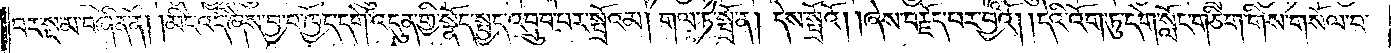བར་སྔ་མ་བཞིན་ནོ། །མིང་འདི་ཞེས་བྱ་བ་ཁྱོད་དགེ་འདུན་གྱི་སྣོད་སྤྱད་འབྲུབ་པར་སྤྲོའམ། གལ་ཏེ་སྤྲོ་ན། དེས་སྤྲོའོ། །ཞེས་བརྗོད་པར་བྱའོ། །དེའི་འོག་ཏུ་དགེ་སློང་གཅིག་གིས་གསོལ་བ་
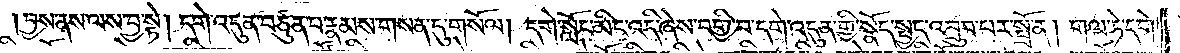བྱས་ནས་ལས་བྱ་སྟེ། དགེ་འདུན་བཙུན་པ་རྣམས་གསན་དུ་གསོལ། དགེ་སློང་མིང་འདི་ཞེས་བགྱི་བ་དགེ་འདུན་གྱི་སྣོད་སྤྱད་འབྲུབ་པར་སྤྲོ་ན། གལ་ཏེ་དགེ་
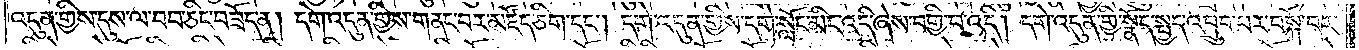འདུན་གྱིས་དུས་ལ་བབ་ཅིང་བཟོད་ན། དགེ་འདུན་གྱིས་གནང་བར་མཛོད་ཅིག་དང༌། དགེ་འདུན་གྱིས་དགེ་སློང་མིང་འདི་ཞེས་བགྱི་བ་འདི། དགེ་འདུན་གྱི་སྣོད་སྤྱད་འབྲུབ་པར་བསྐོ་བར་
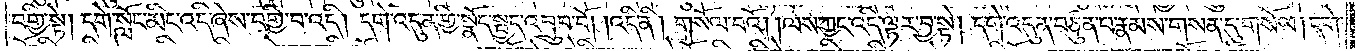བགྱི་སྟེ། དགེ་སློང་མིང་འདི་ཞེས་བགྱི་བ་འདི། དགེ་འདུན་གྱི་སྣོད་སྤྱད་འབྲུབ་བོ། །འདི་ནི། གསོལ་བའོ། །ལས་ཀྱང་འདི་ལྟར་བྱ་སྟེ། དགེ་འདུན་བཙུན་པ་རྣམས་གསན་དུ་གསོལ། དགེ་
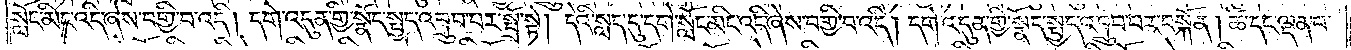སློང་མིང་འདི་ཞེས་བགྱི་བ་འདི། དགེ་འདུན་གྱི་སྣོད་སྤྱད་འབྲུབ་པར་སྤྲོ་སྟེ། དེའི་སླད་དུ་དགེ་སློང་མིང་འདི་ཞེས་བགྱི་བ་འདི། དགེ་འདུན་གྱི་སྣོད་སྤྱད་འབྲུབ་པར་བསྐོ་ན། ཚེ་དང་ལྡན་པ་
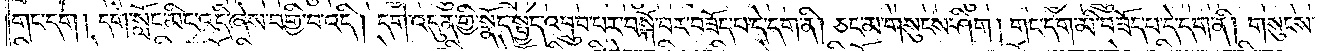གང་དག །དགེ་སློང་མིང་འདི་ཞེས་བགྱི་བ་འདི། དགེ་འདུན་གྱི་སྣོད་སྤྱད་འབྲུབ་པར་བསྐོ་བར་བཟོད་པ་དེ་དག་ནི། ཅང་མ་གསུངས་ཤིག །གང་དག་མི་བཟོད་པ་དེ་དག་ནི། གསུངས་
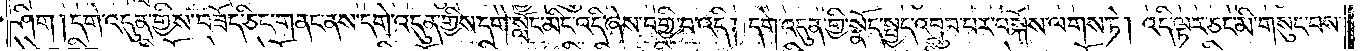ཤིག །དགེ་འདུན་གྱིས་བཟོད་ཅིང་གནང་ནས་དགེ་འདུན་གྱིས་དགེ་སློང་མིང་འདི་ཞེས་བགྱི་བ་འདི། དགེ་འདུན་གྱི་སྣོད་སྤྱད་འབྲུབ་པར་བསྐོས་ལགས་ཏེ། འདི་ལྟར་ཅང་མི་གསུང་བས་
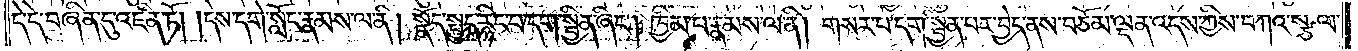དེ་དེ་བཞིན་དུ་འཛིན་ཏོ། །དེས་དགེ་སློང་རྣམས་ལ་ནི། སྣོད་སྤྱད་རྙིང་བ་དག་སྦྱིན་ཞིང༌། ཁྱིམ་པ་རྣམས་ལ་ནི། གསར་པ་དག་སྦྱིན་པར་བྱེད་ནས་བཅོམ་ལྡན་འདས་ཀྱིས་བཀའ་སྩལ་
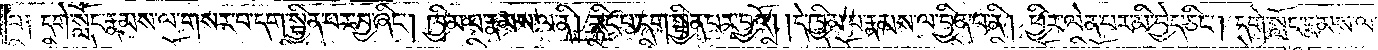བ། དགེ་སློང་རྣམས་ལ་གསར་པ་དག་སྦྱིན་པར་བྱ་ཞིང༌། ཁྱིམ་པ་རྣམས་ལ་ནི། རྙིང་པ་དག་སྦྱིན་པར་བྱའོ། །དེ་ཁྱིམ་པ་རྣམས་ལ་བྱིན་པ་ནི། ཕྱིར་ལེན་པར་མི་བྱེད་ཅིང༌། དགེ་སློང་རྣམས་ལ་
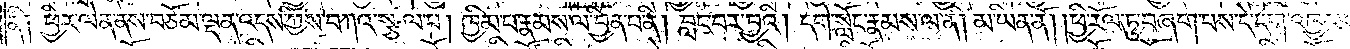ནི། ཕྱིར་ལེན་ནས་བཅོམ་ལྡན་འདས་ཀྱིས་བཀའ་སྩལ་པ། ཁྱིམ་པ་རྣམས་ལ་བྱིན་པ་ནི། བླང་བར་བྱའི། དགེ་སློང་རྣམས་ལ་ནི། མ་ཡིན་ནོ། །ཕྱི་རོལ་ཏུ་བཞག་པས་དེ་དག་འཁྱམས་
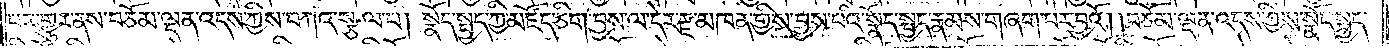པར་གྱུར་ནས་བཅོམ་ལྡན་འདས་ཀྱིས་བཀའ་སྩལ་པ། སྣོད་སྤྱད་ཀྱི་མཛོད་ཅིག་བྱས་ལ་དེར་རྫ་མཁན་གྱིས་བྱས་པའི་སྣོད་སྤྱད་རྣམས་གཞག་པར་བྱའོ། །བཅོམ་ལྡན་འདས་ཀྱིས་སྣོད་སྤྱད་
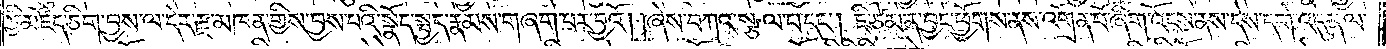ཀྱི་མཛོད་ཅིག་བྱས་ལ་དེར་རྫ་མཁན་གྱིས་བྱས་པའི་སྣོད་སྤྱད་རྣམས་གཞག་པར་བྱའོ། །ཞེས་བཀའ་སྩལ་པ་དང༌། ཇི་ཙམ་ན་བྱང་ཕྱོགས་ནས་འགྲོན་པོ་ཞིག་འོངས་ནས་དེས་དགེ་འདུན་ལ་
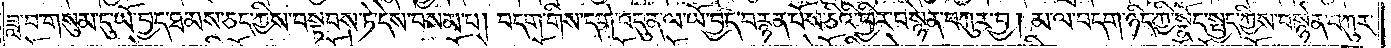ཟླ་བ་གསུམ་དུ་ཡོ་བྱད་ཐམས་ཅད་ཀྱིས་བསྟབས་ཏེ་དེས་བསམ་པ། བདག་གིས་དགེ་འདུན་ལ་ཡོ་བྱད་བརྙན་པོས་ཅིའི་ཕྱིར་བསྙེན་བཀུར་བྱ། མ་ལ་བདག་ཉིད་ཀྱི་སྣོད་སྤྱད་ཀྱིས་བསྙེན་བཀུར་
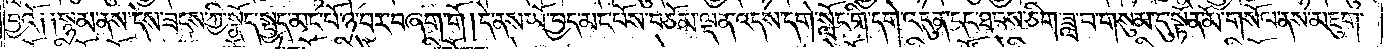བྱའོ། །སྙམ་ནས་དེས་ཟངས་ཀྱི་སྣོད་སྤྱད་མང་པོ་ཉེ་བར་བཞག་གོ །དེ་ནས་ཡོ་བྱད་མང་པོས་བཅོམ་ལྡན་འདས་དགེ་སློང་གི་དགེ་འདུན་དང་ཐབས་ཅིག་ཟླ་བ་གསུམ་དུ་སྟོན་མོ་གསོལ་ནས་མཇུག་
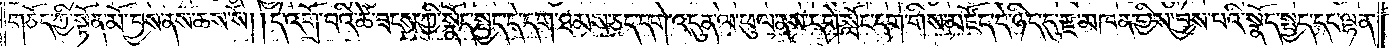གཅོད་ཀྱི་སྟོན་མོ་བྱས་ནས་ཆས་སོ། །དེ་འགྲོ་བའི་ཚེ་ཟངས་ཀྱི་སྣོད་སྤྱད་དེ་དག་ཐམས་ཅད་དགེ་འདུན་ལ་ཕུལ་ནས་དགེ་སློང་དག་གིས་མཛོད་དེ་ཉིད་དུ་རྫ་མཁན་གྱིས་བྱས་པའི་སྣོད་སྤྱད་དང་ལྷན་
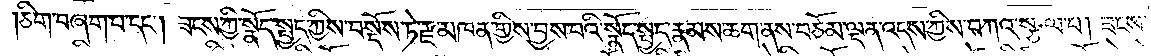ཅིག་བཞག་པ་དང༌། ཟངས་ཀྱི་སྣོད་སྤྱད་ཀྱིས་བསྡོས་ཏེ་རྫ་མཁན་གྱིས་བྱས་པའི་སྣོད་སྤྱད་རྣམས་ཆག་ནས་བཅོམ་ལྡན་འདས་ཀྱིས་བཀའ་སྩལ་པ། ཟངས་
